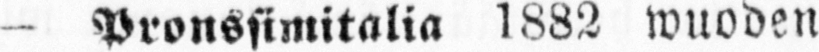— Pronssimitalia 1882 wuoden
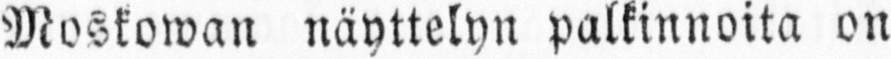Moskowan näyttelyn palkinnoita on
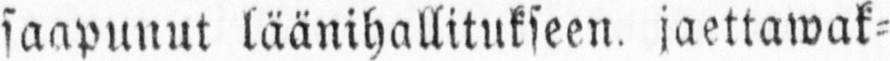saapunut läänihallitukseen, jaettawak-
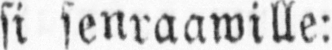si senraawille:
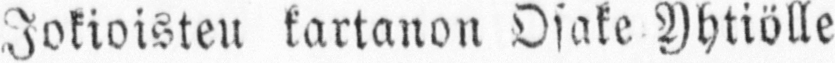Jokioisteu kartanon Osake Yhtiölle
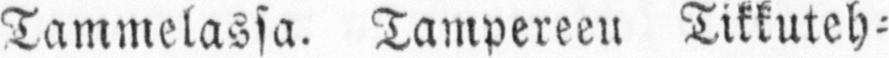Tammelassa. Tampereen Tikkuteh-
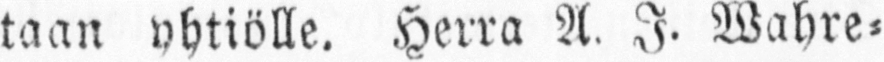taan yhtiölle. Herra A. J. Wahre-
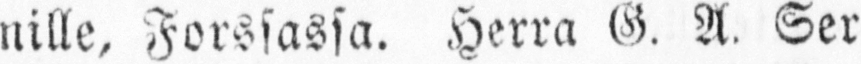nille, Forssassa. Herra G. A. Ser-
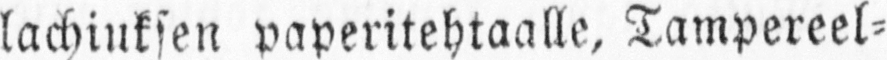lachiuksen paperitehtaalle, Tampereel-
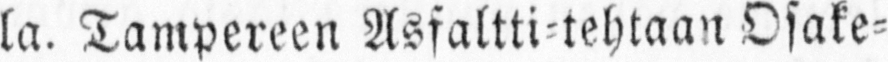la. Tampereen Asfaltti-tehtaan Osake-
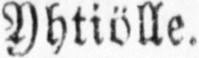Yhtiölle.
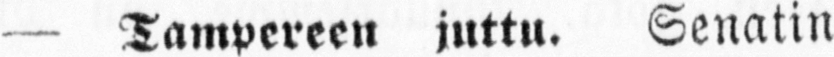— Tampereen juttu. Senatin
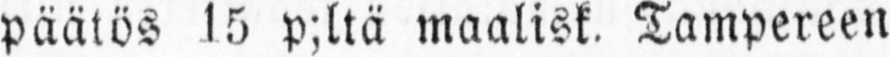päätös 15 p;ltä maalisk. Tampereen
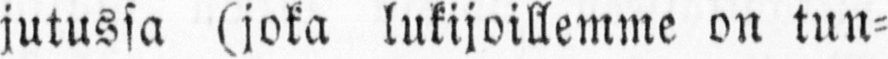jutussa (joka lukijoillemme on tun-
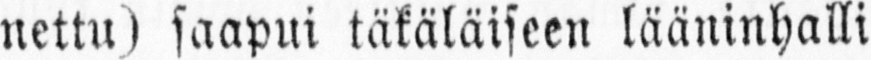nettu) saapui täkäläiseen lääninhalli-
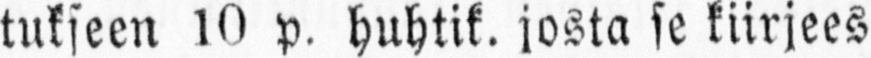tukseen 10 p. huhtik. josta se kiirjees-
